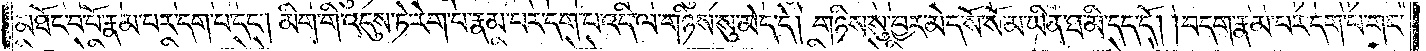མཐོང་བ་པོ་རྣམ་པར་དག་པ་དང༌། མིག་གི་འདུས་ཏེ་རེག་པ་རྣམ་པར་དག་པ་འདི་ལ་གཉིས་སུ་མེད་དེ། གཉིས་སུ་བྱར་མེད་སོ་སོ་མ་ཡིན་ཐ་མི་དད་དོ། །བདག་རྣམ་པར་དག་པ་གང་
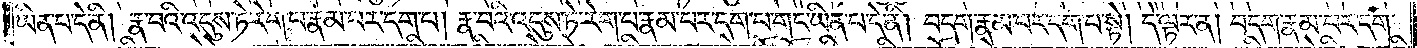ཡིན་པ་དེ་ནི། རྣ་བའི་འདུས་ཏེ་རེག་པ་རྣམ་པར་དག་པ། རྣ་བའི་འདུས་ཏེ་རེག་པ་རྣམ་པར་དག་པ་གང་ཡིན་པ་དེ་ནི། བདག་རྣམ་པར་དག་པ་སྟེ། དེ་ལྟར་ན། བདག་རྣམ་པར་དག་
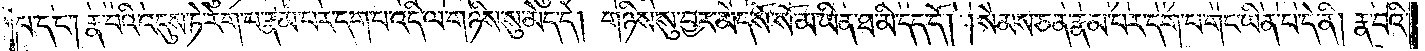པ་དང༌། རྣ་བའི་འདུས་ཏེ་རེག་པ་རྣམ་པར་དག་པ་འདི་ལ་གཉིས་སུ་མེད་དེ། གཉིས་སུ་བྱར་མེད་སོ་སོ་མ་ཡིན་ཐ་མི་དད་དོ། །སེམས་ཅན་རྣམ་པར་དག་པ་གང་ཡིན་པ་དེ་ནི། རྣ་བའི་
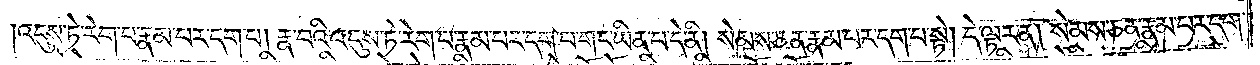འདུས་ཏེ་རེག་པ་རྣམ་པར་དག་པ། རྣ་བའི་འདུས་ཏེ་རེག་པ་རྣམ་པར་དག་པ་གང་ཡིན་པ་དེ་ནི། སེམས་ཅན་རྣམ་པར་དག་པ་སྟེ། དེ་ལྟར་ན། སེམས་ཅན་རྣམ་པར་དག་
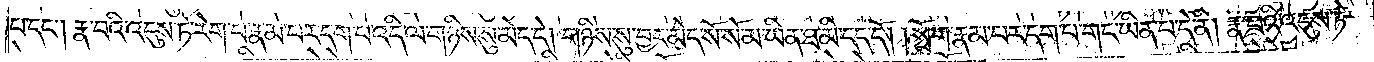པ་དང༌། རྣ་བའི་འདུས་ཏེ་རེག་པ་རྣམ་པར་དག་པ་འདི་ལ་གཉིས་སུ་མེད་དེ། གཉིས་སུ་བྱར་མེད་སོ་སོ་མ་ཡིན་ཐ་མི་དད་དོ། །སྲོག་རྣམ་པར་དག་པ་གང་ཡིན་པ་དེ་ནི། རྣ་བའི་འདུས་ཏེ་
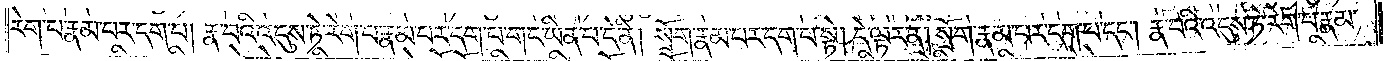རེག་པ་རྣམ་པར་དག་པ། རྣ་བའི་འདུས་ཏེ་རེག་པ་རྣམ་པར་དག་པ་གང་ཡིན་པ་དེ་ནི། སྲོག་རྣམ་པར་དག་པ་སྟེ། དེ་ལྟར་ན། སྲོག་རྣམ་པར་དག་པ་དང༌། རྣ་བའི་འདུས་ཏེ་རེག་པ་རྣམ་
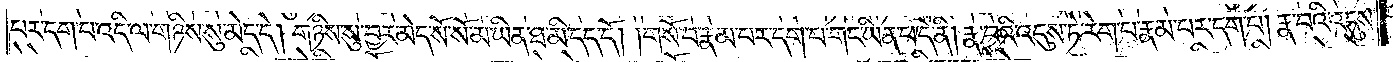པར་དག་པ་འདི་ལ་གཉིས་སུ་མེད་དེ། གཉིས་སུ་བྱར་མེད་སོ་སོ་མ་ཡིན་ཐ་མི་དད་དོ། །གསོ་བ་རྣམ་པར་དག་པ་གང་ཡིན་པ་དེ་ནི། རྣ་བའི་འདུས་ཏེ་རེག་པ་རྣམ་པར་དག་པ། རྣ་བའི་འདུས་
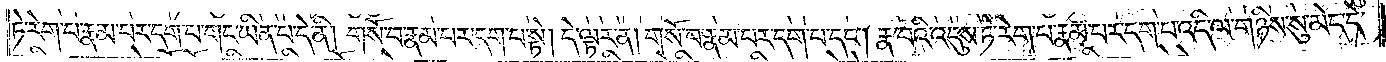ཏེ་རེག་པ་རྣམ་པར་དག་པ་གང་ཡིན་པ་དེ་ནི། གསོ་བ་རྣམ་པར་དག་པ་སྟེ། དེ་ལྟར་ན། གསོ་བ་རྣམ་པར་དག་པ་དང༌། རྣ་བའི་འདུས་ཏེ་རེག་པ་རྣམ་པར་དག་པ་འདི་ལ་གཉིས་སུ་མེད་དེ་
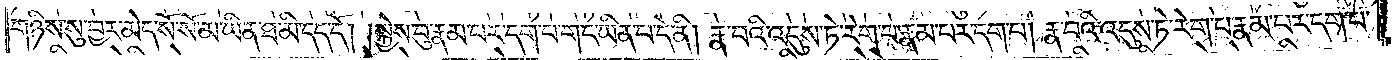གཉིས་སུ་བྱར་མེད་སོ་སོ་མ་ཡིན་ཐ་མི་དད་དོ། །སྐྱེས་བུ་རྣམ་པར་དག་པ་གང་ཡིན་པ་དེ་ནི། རྣ་བའི་འདུས་ཏེ་རེག་པ་རྣམ་པར་དག་པ། རྣ་བའི་འདུས་ཏེ་རེག་པ་རྣམ་པར་དག་པ་
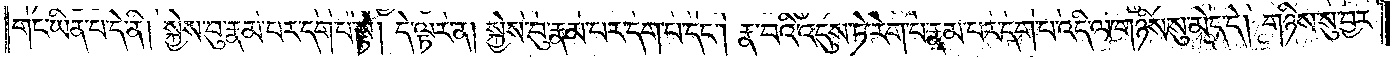གང་ཡིན་པ་དེ་ནི། སྐྱེས་བུ་རྣམ་པར་དག་པ་སྟེ། དེ་ལྟར་ན། སྐྱེས་བུ་རྣམ་པར་དག་པ་དང༌། རྣ་བའི་འདུས་ཏེ་རེག་པ་རྣམ་པར་དག་པ་འདི་ལ་གཉིས་སུ་མེད་དེ། གཉིས་སུ་བྱར་
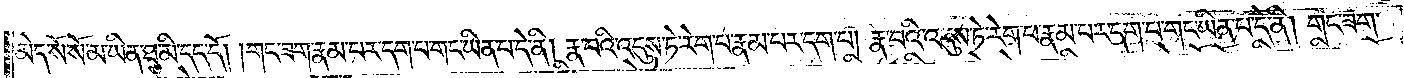མེད་སོ་སོ་མ་ཡིན་ཐ་མི་དད་དོ། །གང་ཟག་རྣམ་པར་དག་པ་གང་ཡིན་པ་དེ་ནི། རྣ་བའི་འདུས་ཏེ་རེག་པ་རྣམ་པར་དག་པ། རྣ་བའི་འདུས་ཏེ་རེག་པ་རྣམ་པར་དག་པ་གང་ཡིན་པ་དེ་ནི། གང་ཟག་
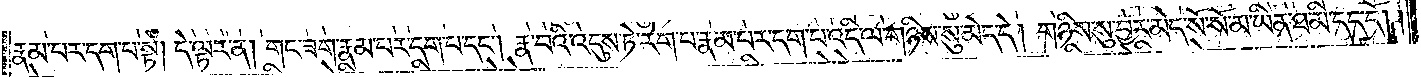རྣམ་པར་དག་པ་སྟེ། དེ་ལྟར་ན། གང་ཟག་རྣམ་པར་དག་པ་དང༌། རྣ་བའི་འདུས་ཏེ་རེག་པ་རྣམ་པར་དག་པ་འདི་ལ་གཉིས་སུ་མེད་དེ། གཉིས་སུ་བྱར་མེད་སོ་སོ་མ་ཡིན་ཐ་མི་དད་དོ།
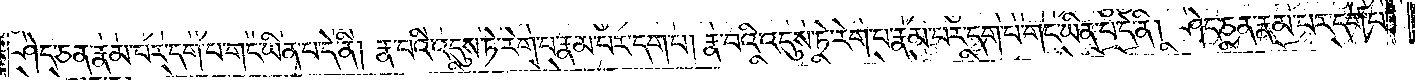།ཤེད་ཅན་རྣམ་པར་དག་པ་གང་ཡིན་པ་དེ་ནི། རྣ་བའི་འདུས་ཏེ་རེག་པ་རྣམ་པར་དག་པ། རྣ་བའི་འདུས་ཏེ་རེག་པ་རྣམ་པར་དག་པ་གང་ཡིན་པ་དེ་ནི། ཤེད་ཅན་རྣམ་པར་དག་པ་
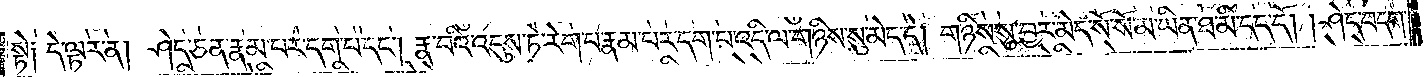སྟེ༑ དེ་ལྟར་ན། ཤེད་ཅན་རྣམ་པར་དག་པ་དང༌། རྣ་བའི་འདུས་ཏེ་རེག་པ་རྣམ་པར་དག་པ་འདི་ལ་གཉིས་སུ་མེད་དེ། གཉིས་སུ་བྱར་མེད་སོ་སོ་མ་ཡིན་ཐ་མི་དད་དོ། །ཤེད་བདག་
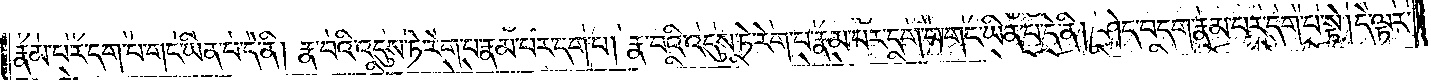རྣམ་པར་དག་པ་གང་ཡིན་པ་དེ་ནི། རྣ་བའི་འདུས་ཏེ་རེག་པ་རྣམ་པར་དག་པ། རྣ་བའི་འདུས་ཏེ་རེག་པ་རྣམ་པར་དག་པ་གང་ཡིན་པ་དེ་ནི། ཤེད་བདག་རྣམ་པར་དག་པ་སྟེ། དེ་ལྟར་
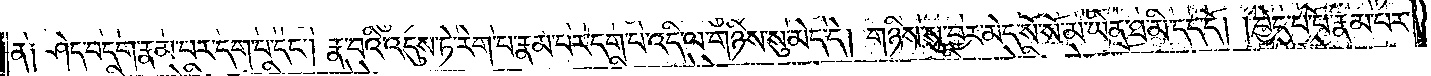ན༑ ཤེད་བདག་རྣམ་པར་དག་པ་དང༌། རྣ་བའི་འདུས་ཏེ་རེག་པ་རྣམ་པར་དག་པ་འདི་ལ་གཉིས་སུ་མེད་དེ། གཉིས་སུ་བྱར་མེད་སོ་སོ་མ་ཡིན་ཐ་མི་དད་དོ། །བྱེད་པ་པོ་རྣམ་པར་
